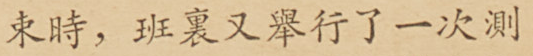束時，班裏又舉行了一次測
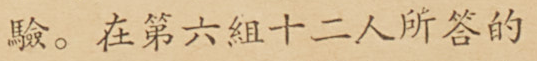驗。在第六組十二人所答的
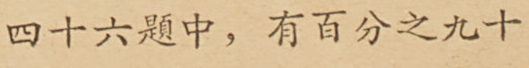四十六題中，有百分之九十
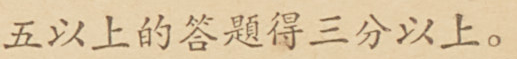五以上的答題得三分以上。
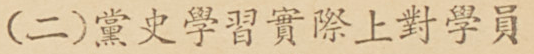（二）黨史學習實際上對學員
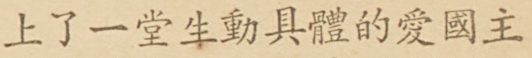上了一堂生動具體的愛國主
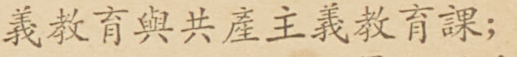義教育與共產主義教育課；
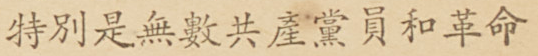特別是無數共產黨員和革命
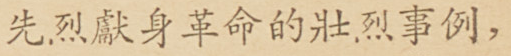先烈獻身革命的壯烈事例，
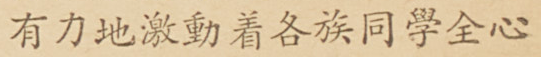有力地激動着各族同學全心
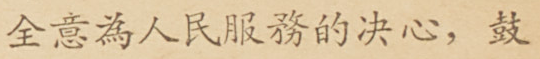全意為人民服務的決心，鼓
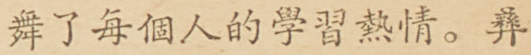舞了每個人的學習熱情。彝
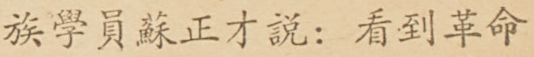族學員蘇正才說：看到革命
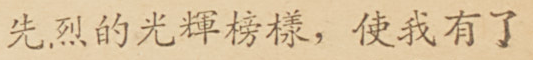先烈的光輝榜樣，使我有了
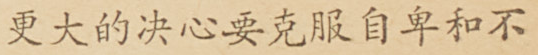更大的決心要克服自卑和不
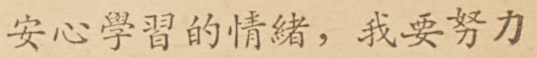安心學習的情緒，我要努力
